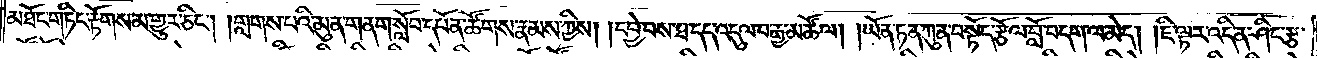མཐོང་གཏིང་རྟོགས་མ་གྱུར་ཅིང༌། །གླགས་པའི་མུན་གནག་སློབ་དཔོན་ཚོགས་རྣམས་ཀྱིས། །དབྱེ་བས་ཐ་དད་འདུལ་བ་རྒྱ་མཚོ་ལ། །ཡོན་ཏན་ཀུན་བསྟོད་རྩོལ་བློ་བདག་ལ་མེད། །ཇི་ལྟར་འདི་ན་ཤིང་རྩ་
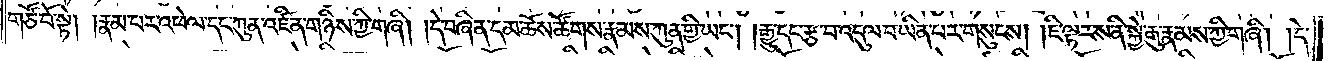གཙོ་བོ་སྟེ། །རྣམ་པར་འཕེལ་དང་ཀུན་འཛིན་གཉིས་ཀྱི་གཞི། །དེ་བཞིན་དམ་ཆོས་ཚོགས་རྣམས་ཀུན་གྱི་ཡང༌། །རྒྱུ་དང་རྩ་བ་འདུལ་བ་ཡིན་པར་གསུངས། །ཇི་ལྟར་ས་ནི་སྐྱེ་རྒུ་རྣམས་ཀྱི་གཞི། །དེ་
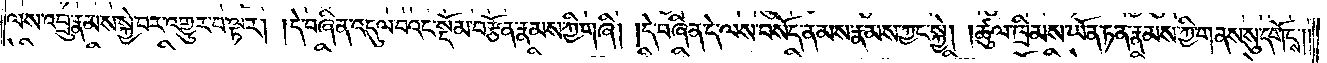ལས་འབྲུ་རྣམས་སྐྱེ་བར་འགྱུར་བ་ལྟར། །དེ་བཞིན་འདུལ་བའང་སྡོམ་བརྩོན་རྣམས་ཀྱི་གཞི། །དེ་བཞིན་དེ་ལས་བསོད་ནམས་རྣམས་ཀྱང་སྐྱེ། །ཚུལ་ཁྲིམས་ཡོན་ཏན་རྣམས་ཀྱི་གནས་སུ་དགོངས༎
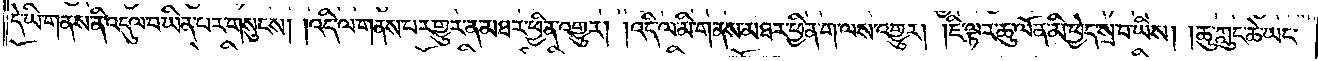དེ་ཡི་གནས་ནི་འདུལ་བ་ཡིན་པར་གསུངས། །འདི་ལ་གནས་པར་གྱུར་ན་མཐར་ཕྱིན་འགྱུར། །འདི་ལ་མི་གནས་མཐར་ཕྱིན་ག་ལས་འགྱུར། །ཇི་ལྟར་ཆུ་ལོན་མི་ཕྱེད་སྲ་བ་ཡིས། །ཆུ་ཀླུང་ཆེ་ཡང་
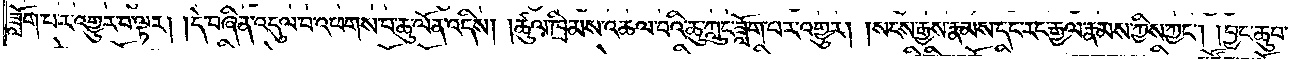ཟློག་པར་འགྱུར་བ་ལྟར། །དེ་བཞིན་འདུལ་བ་འཕགས་པ་ཆུ་ལོན་འདིས། །ཚུལ་ཁྲིམས་འཆལ་བའི་ཆུ་ཀླུང་ཟློག་པར་འགྱུར། །སངས་རྒྱས་རྣམས་དང་རང་རྒྱལ་རྣམས་ཀྱིས་ཀྱང༌། །བྱང་ཆུབ་
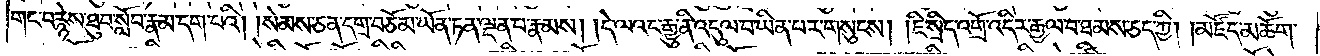གང་བརྙེས་ཐུབ་སློབ་རྣམ་དག་པའི། །སེམས་ཅན་དགྲ་བཅོམ་ཡོན་ཏན་ལྡན་པ་རྣམས། །དེ་ལའང་རྒྱུ་ནི་འདུལ་བ་ཡིན་པར་གསུངས། །ཇི་སྲིད་འགྲོ་འདིར་རྒྱལ་བ་ཐམས་ཅད་ཀྱི། མཛོད་མཆོག་
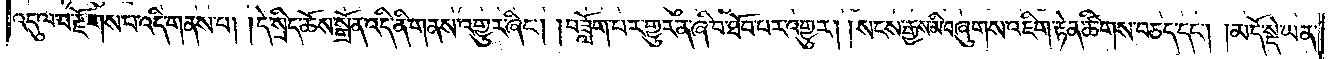འདུལ་བ་རྫོགས་པ་འདི་གནས་པ། །དེ་སྲིད་ཆོས་སྒྲོན་འདི་ནི་གནས་འགྱུར་ཞིང༌། །བཟློག་པར་གྱུར་ན་ཞི་བ་ཐོབ་པར་འགྱུར། །སངས་རྒྱས་མི་བཞུགས་འཇིག་རྟེན་ཚིགས་བཅད་དང༌། །མདོ་སྡེ་ཡན་
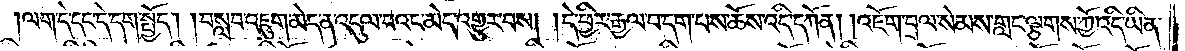ལག་དེ་དང་དེ་དག་སྤྱོད། །བསླབ་འཇུག་མེད་ན་འདུལ་བའང་མེད་འགྱུར་བས། །དེ་ཕྱིར་རྒྱལ་བ་དག་པས་ཆོས་འདི་དཀོན། །འཇོག་བྲལ་སེམས་གླང་ལྕགས་ཀྱོ་འདི་ཡིན་
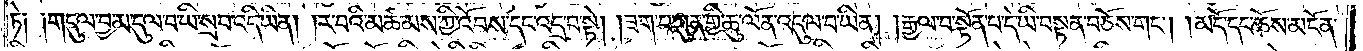ཏེ༑ ༑གདུལ་བྱ་མ་དུལ་བ་ཡི་སྲབ་འདི་ཡིན། །ར་བའི་མཚམས་ཀྱི་འོབས་དང་འདྲ་བ་སྟེ། །ཟག་པ་ཀུན་གྱི་ཆུ་ལོན་འདུལ་བ་ཡིན། །རྒྱལ་བ་སྟོན་པ་དེ་ཡི་བསྟན་བཅོས་གང༌། །མདོ་དང་ཆོས་མངོན་
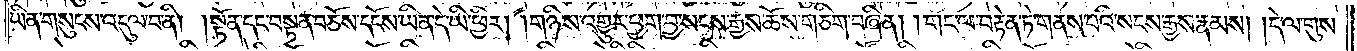ཡིན་གསུངས་འདུལ་བ་ནི། །སྟོན་དང་བསྟན་བཅོས་དངོས་ཡིན་དེ་ཡི་ཕྱིར། །གཉིས་འགྱུར་ཕྱག་བྱ་སངས་རྒྱས་ཆོས་གཅིག་བཞིན། །གང་ལ་བརྟེན་ཏེ་གནས་པའི་སངས་རྒྱས་རྣམས། །དེ་ལ་གུས་
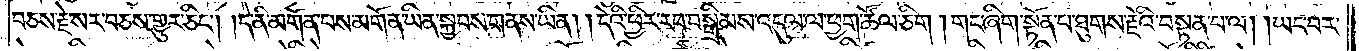བཅས་རྗེ་སར་བཅས་གྱུར་ཅིང༌། །དེ་ནི་མགོན་པས་མགོན་ཡིན་སྐྱབས་གནས་ཡིན། །དེའི་ཕྱིར་རབ་བསྒྲིམས་འདུལ་ལ་ཕྱག་ཚོལ་ཅིག །གང་ཞིག་སྟོན་པ་ཐུགས་རྗེའི་བསྟན་པ་ལ། །ཡང་བར་
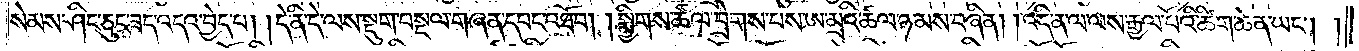སེམས་ཤིང་ཅུང་ཟད་འདའ་བྱེད་པ། །དེ་ནི་དེ་ལས་སྡུག་བསྔལ་གཞན་དབང་འཐོབ། །སྨྱིགས་ཚལ་བྲེགས་པས་ཨ་མྲའི་ཚལ་ཉམས་བཞིན། །འདི་ན་ལ་ལས་རྒྱལ་པོའི་ཚིག་ཆེན་ཡང༌། །
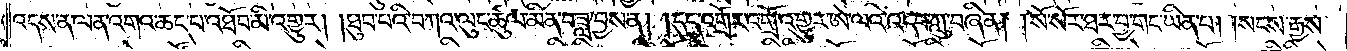འདས་ན་ལན་འགའ་ཆད་པ་འཐོབ་མི་འགྱུར། །ཐུབ་པའི་བཀའ་ལུང་ཚུལ་མིན་བཟླ་བྱས་ན། །དུད་འགྲོར་འགྲོ་འགྱུར་ཨེ་ལའི་འདབ་ཀླུ་བཞིན། །སོ་སོར་ཐར་བྱ་གང་ཡིན་པ། །སངས་རྒྱས་
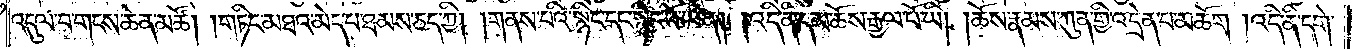འདུལ་བ་གངས་ཆེན་མཚོ། །གཏིང་མཐའ་མེད་པ་ཐམས་ཅད་ཀྱི། །གནས་པའི་སྙིང་དང་སྙིང་པོ་ཡིན། །འདི་ནི་དམ་ཆོས་རྒྱལ་པོ་ཡི། །ཆོས་རྣམས་ཀུན་གྱི་འདྲེན་པ་མཆོག །འདི་ནི་དགེ་
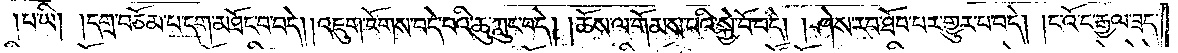པ་ཡི། །དགྲ་བཅོམ་པ་དག་མཐོང་བ་བདེ། །འཇུག་ངོགས་བདེ་བའི་ཆུ་ཀླུང་བདེ། །ཆོས་ལ་གོམས་པའི་སྐྱེ་བོ་བདེ། །ཤེས་རབ་ཐོབ་པར་གྱུར་པ་བདེ། །ང་འོ་ང་རྒྱལ་ཟད་
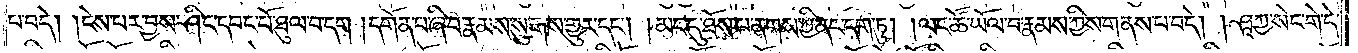པ་བདེ། །ངེས་པར་བྱས་ཤིང་དབང་པོ་ཐུལ་བ་དག །དགོན་པ་ཞི་བ་རྣམས་སུ་རྒས་གྱུར་དང༌། །མང་དུ་ཐོས་པ་ནགས་ཀྱི་ནང་དག་ཏུ། །ལང་ཚོ་ཡོལ་བ་རྣམས་ཀྱིས་གནས་པ་བདེ། །ཤཱཀྱ་སེང་གེ་དེ་
